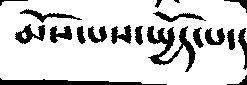མོས་པས་སྤྱོད་པ་།
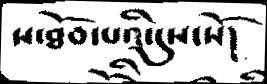ས་ཐོབ་པའི་དུས་སོ།
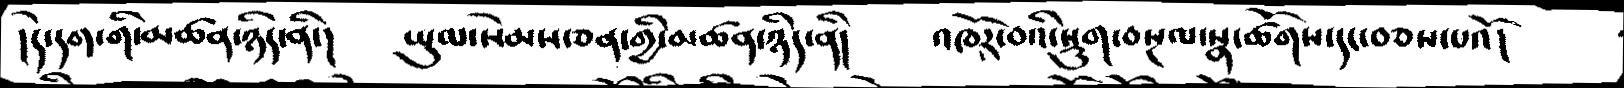།དེ་དག་གི་མཚན་ཉིད་ནི།     ཡུལ་སེམས་ཅན་གྱི་མཚན་ཉིད་ནི།    འཁོར་བའི་སྡུག་བསྔལ་སྣ་ཚོགས་དང་བཅས་པའོ།
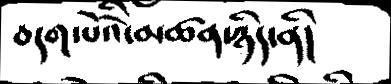བདག་པོའི་མཚན་ཉིད་ནི།
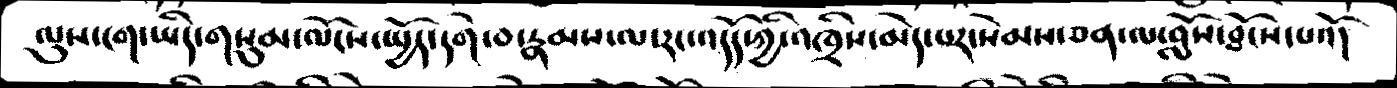ལུས་ངག་ཡིད་གསུམ་ལོངས་སྤྱོད་དགེ་བ་རྣམས་ལ་རང་འདོད་ཀྱི་འཁྲིས་མེད་པར་སེམས་ཅན་ལ་བློས་ཐོངས་པའོ།
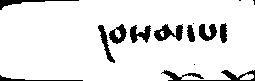།བསམ་པ་
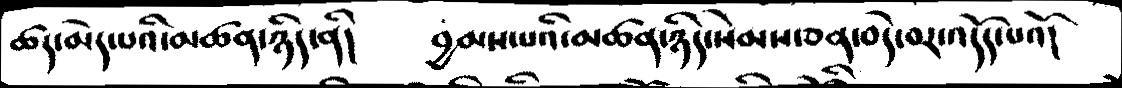ཚད་མེད་པའི་མཚན་ཉིད་ནི།    བྱམས་པའི་མཚན་ཉིད་སེམས་ཅན་བདེ་བར་འདོད་པའོ།
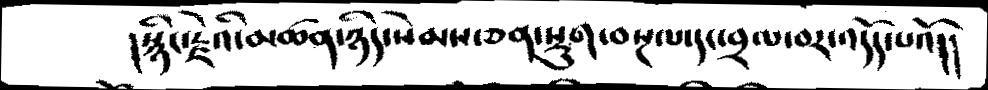།སྙིང་རྗེའི་མཚན་ཉིད་སེམས་ཅན་སྡུག་བསྔལ་དང་བྲལ་བར་འདོད་པའོ།།
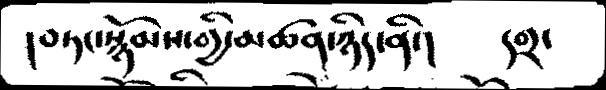།བཏང་སྙོམས་གྱི་མཚན་ཉིད་ནི་།  དགྲ་
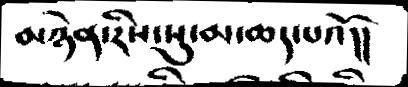མཉེན་རིས་སུ་མ་ཆད་པའོ།།
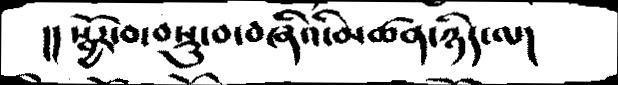།།སྦྱོར་བ་བསྡུ་བ་བཞིའི་མཚན་ཉིད་ལ།
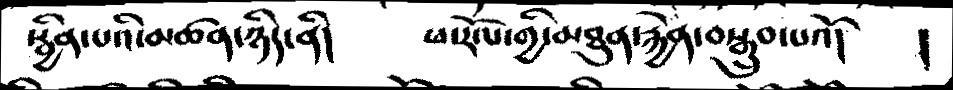སྦྱིན་པའི་མཚན་ཉིད་ནི།    ཕ་རོལ་གྱི་མཐུན་རྐྱེན་བསྒྲུབ་པའོ།      །
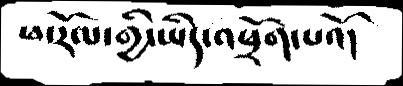ཕ་རོལ་གྱི་ཡིད་འཕྲོག་པའོ།
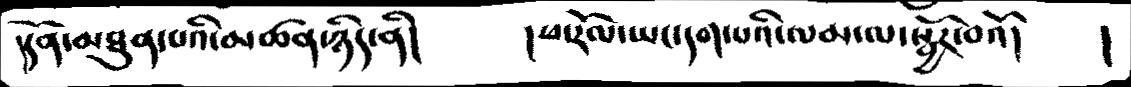།དོན་མཐུན་པའི་མཚན་ཉིད་ནི།    །ཕ་རོལ་ཡང་དག་པའི་ལམ་ལ་སྦྱོར་བའོ།
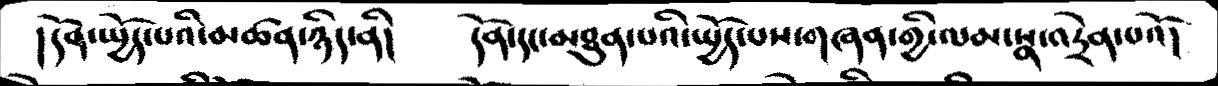།དོན་སྤྱོད་པའི་མཚན་ཉིད་ནི།   དོན་དང་མཐུན་པའི་སྤྱོད་པས་གཞན་གྱི་ལམ་སྣ་འདྲེན་པའོ།
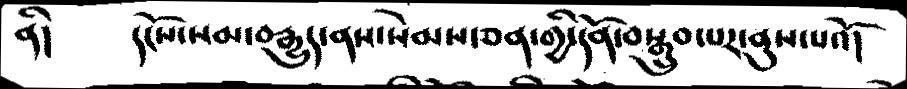ནི།    དངོས་སམ་བརྒྱུད་ནས་སེམས་ཅན་གྱི་དོན་བསྒྲུབ་པར་ནུས་པའོ།
